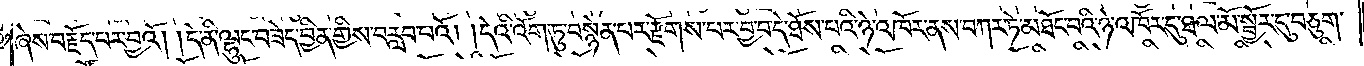ཞེས་བརྗོད་པར་བྱའོ། །དེ་ནི་ལྷུང་བཟེད་བྱིན་གྱིས་བརླབ་པའོ། །དེའི་འོག་ཏུ་བསྙེན་པར་རྫོགས་པར་བྱ་བ་དེ་ཐོས་པའི་ཉེ་འཁོར་ནས་བཀར་ཏེ་མཐོང་བའི་ཉེ་འཁོར་དུ་ཐལ་མོ་སྦྱོར་དུ་བཅུག་
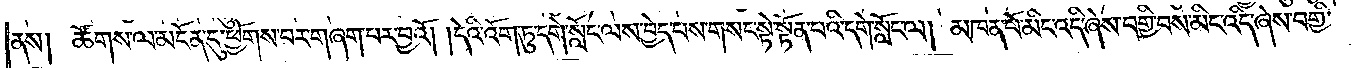ནས། ཚོགས་ལ་མངོན་དུ་ཕྱོགས་པར་གཞག་པར་བྱའོ། །དེའི་འོག་ཏུ་དགེ་སློང་ལས་བྱེད་པས་གསང་སྟེ་སྟོན་པའི་དགེ་སློང་ལ། མཁན་པོ་མིང་འདི་ཞེས་བགྱི་བས་མིང་འདི་ཞེས་བགྱི་
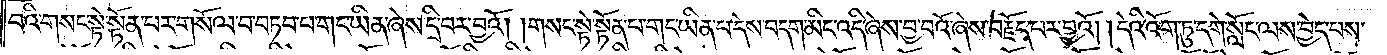བའི་གསང་སྟེ་སྟོན་པར་གསོལ་བ་བཏབ་པ་གང་ཡིན་ཞེས་དྲི་བར་བྱའོ། །གསང་སྟེ་སྟོན་པ་གང་ཡིན་པ་དེས་བདག་མིང་འདི་ཞེས་བྱ་བའོ་ཞེས་བརྗོད་པར་བྱའོ། །དེའི་འོག་ཏུ་དགེ་སློང་ལས་བྱེད་པས་
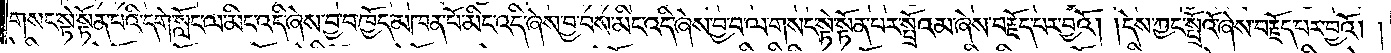གསང་སྟེ་སྟོན་པའི་དགེ་སློང་ལ་མིང་འདི་ཞེས་བྱ་བ་ཁྱོད་མཁན་པོ་མིང་འདི་ཞེས་བྱ་བས་མིང་འདི་ཞེས་བྱ་བ་ལ་གསང་སྟེ་སྟོན་པར་སྤྲོའམ་ཞེས་བརྗོད་པར་བྱའོ། །དེས་ཀྱང་སྤྲོའོ་ཞེས་བརྗོད་པར་བྱའོ། །
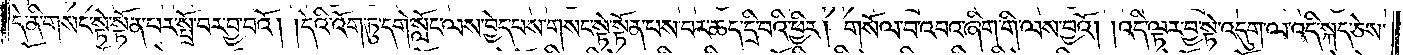དེ་ནི་གསང་སྟེ་སྟོན་པར་སྤྲོ་བར་བྱ་བའོ། །དེའི་འོག་ཏུ་དགེ་སློང་ལས་བྱེད་པས་གསང་སྟེ་སྟོན་པས་བར་ཆད་དྲི་བའི་ཕྱིར། གསོལ་བ་འབའ་ཞིག་གི་ལས་བྱའོ། །འདི་ལྟར་བྱ་སྟེ་འདུག་ལ་འདི་སྐད་ཅེས་
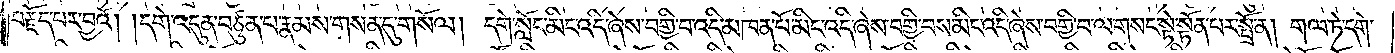བརྗོད་པར་བྱའོ། །དགེ་འདུན་བཙུན་པ་རྣམས་གསན་དུ་གསོལ། དགེ་སློང་མིང་འདི་ཞེས་བགྱི་བ་འདི་མཁན་པོ་མིང་འདི་ཞེས་བགྱི་བས་མིང་འདི་ཞེས་བགྱི་བ་ལ་གསང་སྟེ་སྟོན་པར་སྤྲོ་ན། གལ་ཏེ་དགེ་
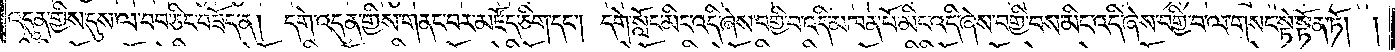འདུན་གྱིས་དུས་ལ་བབ་ཅིང་བཟོད་ན། དགེ་འདུན་གྱིས་གནང་བར་མཛོད་ཅིག་དང༌། དགེ་སློང་མིང་འདི་ཞེས་བགྱི་བ་འདི་མཁན་པོ་མིང་འདི་ཞེས་བགྱི་བས་མིང་འདི་ཞེས་བགྱི་བ་ལ་གསང་སྟེ་སྟོན་ཏོ། །
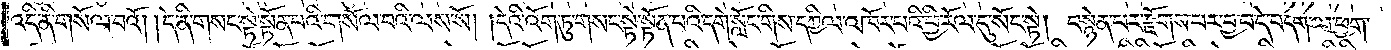འདི་ནི་གསོལ་བའོ། །དེ་ནི་གསང་སྟེ་སྟོན་པའི་གསོལ་བའི་ལས་སོ། །དེའི་འོག་ཏུ་གསང་སྟེ་སྟོན་པའི་དགེ་སློང་གིས་དཀྱིལ་འཁོར་པའི་ཕྱི་རོལ་དུ་སོང་སྟེ། བསྙེན་པར་རྫོགས་པར་བྱ་བ་དེ་བདག་ལ་ཕྱག་
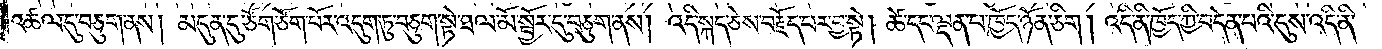འཚལ་དུ་བཅུག་ནས། མདུན་དུ་ཙོག་ཙོག་པོར་འདུག་ཏུ་བཅུག་སྟེ་ཐལ་མོ་སྦྱོར་དུ་བཅུག་ནས། འདི་སྐད་ཅེས་བརྗོད་པར་བྱ་སྟེ། ཚེ་དང་ལྡན་པ་ཁྱོད་ཉོན་ཅིག །འདི་ནི་ཁྱོད་ཀྱི་བདེན་པའི་དུས་འདི་ནི་
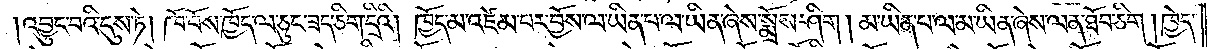འབྱུང་བའི་དུས་ཏེ། ཁོ་བོས་ཁྱོད་ལ་ཅུང་ཟད་ཅིག་དྲིའི། ཁྱོད་མ་འཛེམ་པར་བྱོས་ལ་ཡིན་པ་ལ་ཡིན་ཞེས་སྨྲོས་ཤིག། མ་ཡིན་པ་ལ་མ་ཡིན་ཞེས་ལན་ཐོབ་ཅིག །ཁྱེད་
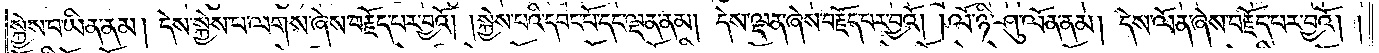སྐྱེས་པ་ཡིན་ནམ། དེས་སྐྱེས་པ་ལེགས་ཞེས་བརྗོད་པར་བྱའོ། །སྐྱེས་པའི་དབང་པོ་དང་ལྡན་ནམ། དེས་ལྡན་ཞེས་བརྗོད་པར་བྱའོ། །ལོ་ཉི་ཤུ་ལོན་ནམ། དེས་ལོན་ཞེས་བརྗོད་པར་བྱའོ། །
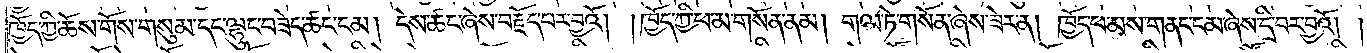ཁྱོད་ཀྱི་ཆོས་གོས་གསུམ་དང་ལྷུང་བཟེད་ཚང་ངམ། དེས་ཚང་ཞེས་བརྗོད་པར་བྱའོ། །ཁྱོད་ཀྱི་ཕ་མ་གསོན་ནམ། གལ་ཏེ་གསོན་ཞེས་ཟེར་ན། ཁྱོད་ཕ་མས་གནང་ངམ་ཞེས་དྲི་བར་བྱའོ། །
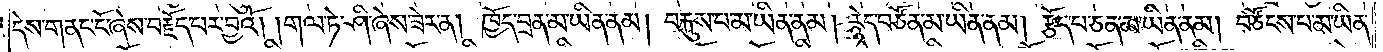དེས་གནང་ངོ་ཞེས་བརྗོད་པར་བྱའོ། །གལ་ཏེ་ཤི་ཞེས་ཟེར་ན། ཁྱོད་བྲན་མ་ཡིན་ནམ། བརྐུས་པ་མ་ཡིན་ནམ། རྙེད་བཙོན་མ་ཡིན་ནམ། རྩོད་པ་ཅན་མ་ཡིན་ནམ། བཙོངས་པ་མ་ཡིན་
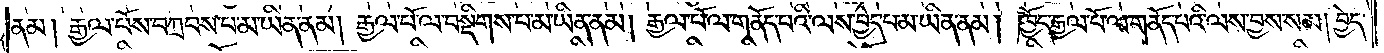ནམ། རྒྱལ་པོས་བཀྲབས་པ་མ་ཡིན་ནམ། རྒྱལ་པོ་ལ་བསྡིགས་པ་མ་ཡིན་ནམ། རྒྱལ་པོ་ལ་གནོད་པའི་ལས་བྱེད་པ་མ་ཡིན་ནམ། ཁྱོད་རྒྱལ་པོ་ལ་གནོད་པའི་ལས་བྱས་སམ། བྱེད་
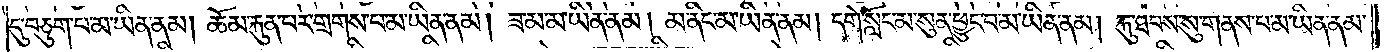དུ་བཅུག་པ་མ་ཡིན་ནམ། ཆོམ་རྐུན་པར་གྲགས་པ་མ་ཡིན་ནམ། ཟ་མ་མ་ཡིན་ནམ། མ་ནིང་མ་ཡིན་ནམ། དགེ་སློང་མ་སུན་ཕྱུང་བ་མ་ཡིན་ནམ། རྐུ་ཐབས་སུ་གནས་པ་མ་ཡིན་ནམ་
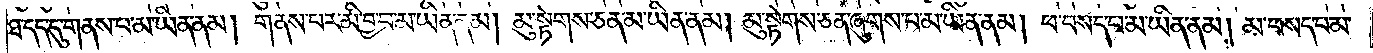ཐ་དད་དུ་གནས་པ་མ་ཡིན་ནམ། གནས་པར་མི་བྱ་བ་མ་ཡིན་ནམ། མུ་སྟེགས་ཅན་མ་ཡིན་ནམ། མུ་སྟེགས་ཅན་ཞུགས་པ་མ་ཡིན་ནམ། ཕ་བསད་པ་མ་ཡིན་ནམ། མ་བསད་པ་མ་
